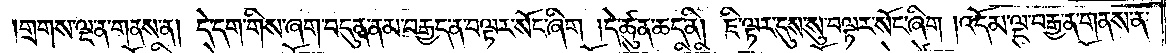གྲགས་ལྡན་གནས་ན། དེ་དག་གིས་ཞག་བདུན་ནམ་བརྒྱད་ན་བལྟར་སོང་ཞིག །དེ་ཚུན་ཆད་ནི། ཇི་ལྟར་དུས་སུ་བལྟར་སོང་ཞིག །འདོམ་ལྔ་བརྒྱ་ན་གནས་ན་
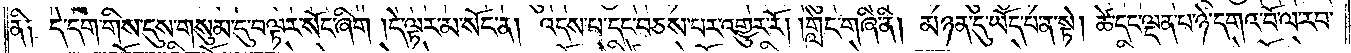ནི༑ དེ་དག་གིས་དུས་གསུམ་དུ་བལྟར་སོང་ཞིག །དེ་ལྟར་མ་སོང་ན། འདས་པ་དང་བཅས་པར་འགྱུར་རོ། །གླེང་གཞི་ནི། མཉན་དུ་ཡོད་པ་ན་སྟེ། ཚེ་དང་ལྡན་པ་ཉེ་དགའ་བོ་ལ་རབ་
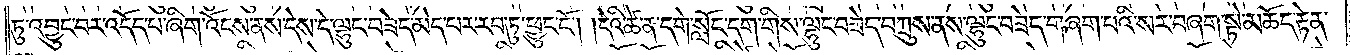ཏུ་འབྱུང་བར་འདོད་པ་ཞིག་འོངས་ནས་དེས་དེ་ལྷུང་བཟེད་མེད་པར་རབ་ཏུ་ཕྱུང་ངོ༌། །དེའི་ཚེ་ན་དགེ་སློང་དག་གིས་ལྷུང་བཟེད་བཀྲུས་ནས་ལྷུང་བཟེད་གཞག་པའི་སར་བཞག་སྟེ་མཆོད་རྟེན་
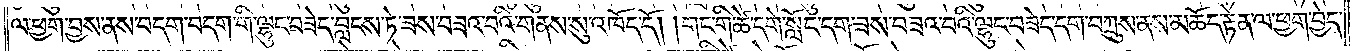ལ་ཕྱག་བྱས་ནས་བདག་བདག་གི་ལྷུང་བཟེད་བླངས་ཏེ་ཟས་བཟའ་བའི་གནས་སུ་འཁོད་དོ། །གང་གི་ཚེ་དགེ་སློང་དག་ཟས་བཟའ་བའི་ལྷུང་བཟེད་དག་བཀྲུས་ནས་མཆོད་རྟེན་ལ་ཕྱག་བྱེད་
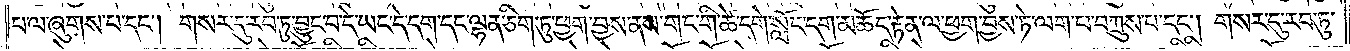པ་ལ་ཞུགས་པ་དང༌། གསར་དུ་རབ་ཏུ་བྱུང་བ་དེ་ཡང་དེ་དག་དང་ལྷན་ཅིག་ཏུ་ཕྱག་བྱས་ནས་གང་གི་ཚེ་དགེ་སློང་དག་མཆོད་རྟེན་ལ་ཕྱག་བྱས་ཏེ་ལག་པ་བཀྲུས་པ་དང༌། གསར་དུ་རབ་ཏུ་
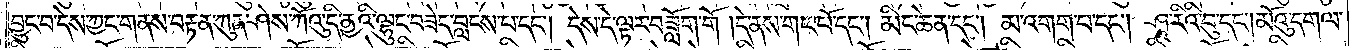བྱུང་བ་དེས་ཀྱང་གནས་བརྟན་ཀུན་ཤེས་ཀོའུ་འདི་ནྱའི་ལྷུང་བཟེད་བླངས་པ་དང༌། དེས་དེ་ལྟར་བཟློག་གོ །དེ་ནས་གང་པོ་དང༌། མིང་ཆེན་དང༌། མ་འགག་པ་དང༌། ཤཱ་རིའི་བུ་དང༌། མོའུ་དགལ་
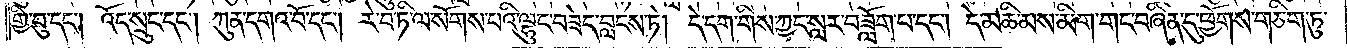གྱི་བུ་དང༌། འོད་སྲུང་དང༌། ཀུན་དགའ་བོ་དང༌། རེ་བ་ཏི་ལ་སོགས་པའི་ལྷུང་བཟེད་བླངས་ཏེ། དེ་དག་གིས་ཀྱང་སླར་བཟློག་པ་དང༌། དེ་མཆི་མས་མིག་གང་བཞིན་དུ་ཕྱོགས་གཅིག་ཏུ་
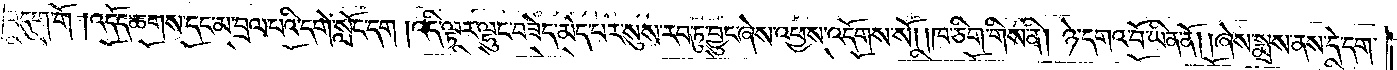བདུག་གོ །འདོད་ཆགས་དང་མ་བྲལ་པའི་དགེ་སློང་དག །འདི་ལྟར་ལྷུང་བཟེད་མེད་པར་སུས་རབ་ཏུ་བྱུང་ཞེས་འཕྱས་འདོགས་སོ། །ཁ་ཅིག་གིས་ནི། ཉེ་དགའ་བོ་ཡིན་ནོ། །ཞེས་སྨྲས་ནས་དེ་དག་
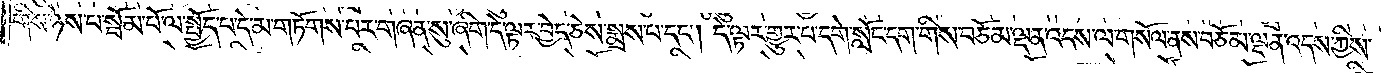གིས་ཉེས་པ་སྦོམ་པོ་ལ་སྤྱོད་པ་དེ་མ་གཏོགས་པར་གཞན་སུ་ཞིག་དེ་ལྟར་བྱེད་ཅེས་སྨྲས་པ་དང༌། དེ་ལྟར་གྱུར་པ་དགེ་སློང་དག་གིས་བཅོམ་ལྡན་འདས་ལ་གསོལ་ནས་བཅོམ་ལྡན་འདས་ཀྱིས་
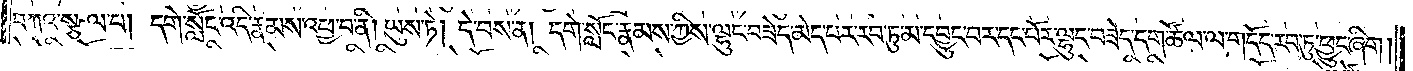བཀའ་སྩལ་པ། དགེ་སློང་འདི་རྣམས་འཕྱ་བ་ནི། ཡུས་ཏེ། དེ་བས་ན། དགེ་སློང་རྣམས་ཀྱིས་ལྷུང་བཟེད་མེད་པར་རབ་ཏུ་དབྱུང་བར་དང་པོར་ལྷུང་བཟེད་དག་ཚོལ་ལ་གདོད་རབ་ཏུ་ཕྱུང་ཞིག།
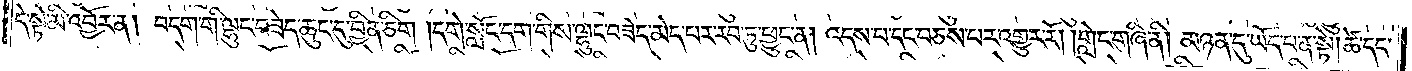དེ་སྟེ་མི་འབྱོར་ན། བདག་གི་ལྷུང་བཟེད་ཆུང་དུ་བྱིན་ཅིག །དགེ་སློང་དག་གིས་ལྷུང་བཟེད་མེད་པར་རབ་ཏུ་ཕྱུང་ན། འདས་པ་དང་བཅས་པར་འགྱུར་རོ། །གླེང་གཞི་ནི། མཉན་དུ་ཡོད་པ་ན་སྟེ། ཚེ་དང་
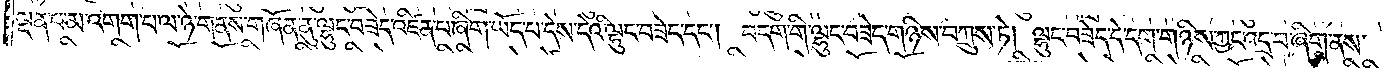ལྡན་པ་མ་འགག་པ་ལ་ཉེ་གནས་གཞོན་ནུ་ལྷུང་བཟེད་འཛིན་པ་ཞིག་ཡོད་པ་དེས་དེའི་ལྷུང་བཟེད་དང༌། བདག་གི་ལྷུང་བཟེད་གཉིས་བཀྲུས་ཏེ། ལྷུང་བཟེད་དེ་དག་གཉིས་ཀྱང་འདྲ་བ་ཞིག་ནས་
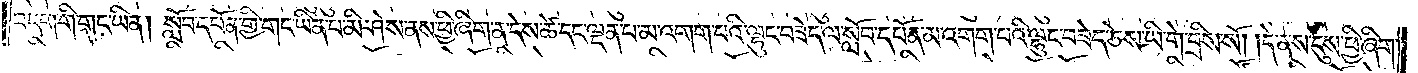བདག་གི་གང་ཡིན། སློབ་དཔོན་གྱི་གང་ཡིན་པ་མི་ཤེས་ནས་ཕྱི་ཞིག་ན་དེས་ཚེ་དང་ལྡན་པ་མ་འགག་པའི་ལྷུང་བཟེད་ལ་སློབ་དཔོན་མ་འགག་པའི་ལྷུང་བཟེད་ཅེས་ཡི་གེ་བྲིས་སོ། །དེ་ནས་དུས་ཕྱི་ཞིག་
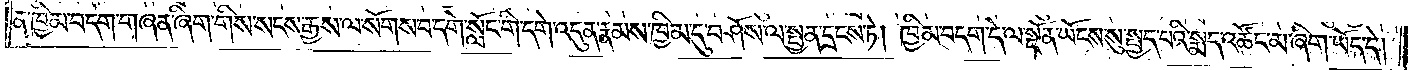ན་ཁྱིམ་བདག་གཞན་ཞིག་གིས་སངས་རྒྱས་ལ་སོགས་བ་དགེ་སློང་གི་དགེ་འདུན་རྣམས་ཁྱིམ་དུ་བཤོས་ལ་སྤྱན་དྲངས་ཏེ། ཁྱིམ་བདག་དེ་ལ་སྔོན་ཡོངས་སུ་སྤྱད་པའི་སྨད་འཚོང་མ་ཞིག་ཡོད་དེ།
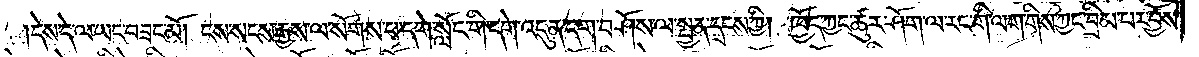དེས་དེ་ལ་ཡང་བཟང་མོ། ངས་སངས་རྒྱས་ལ་སོགས་པ་དགེ་སློང་གི་དགེ་འདུན་དག་བཤོས་ལ་སྤྱན་དྲངས་ཀྱི། ཁྱོད་ཀྱང་ཚུར་ཤོག་ལ་རང་གི་ལག་གིས་ཀྱང་བྲིམ་པར་བྱོས་
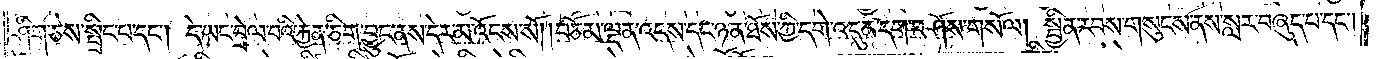ཤིག་ཅེས་སྤྲིང་པ་དང༌། དེ་ཡང་བྲེལ་བའི་རྐྱེན་ཅིག་བྱུང་ནས་དེར་མ་འོངས་སོ། །བཅོམ་ལྡན་འདས་དང་ཉན་ཐོས་ཀྱི་དགེ་འདུན་དག་བཤོས་གསོལ། སྦྱིན་རབས་གསུངས་ནས་སླར་བཞུད་པ་དང༌།
